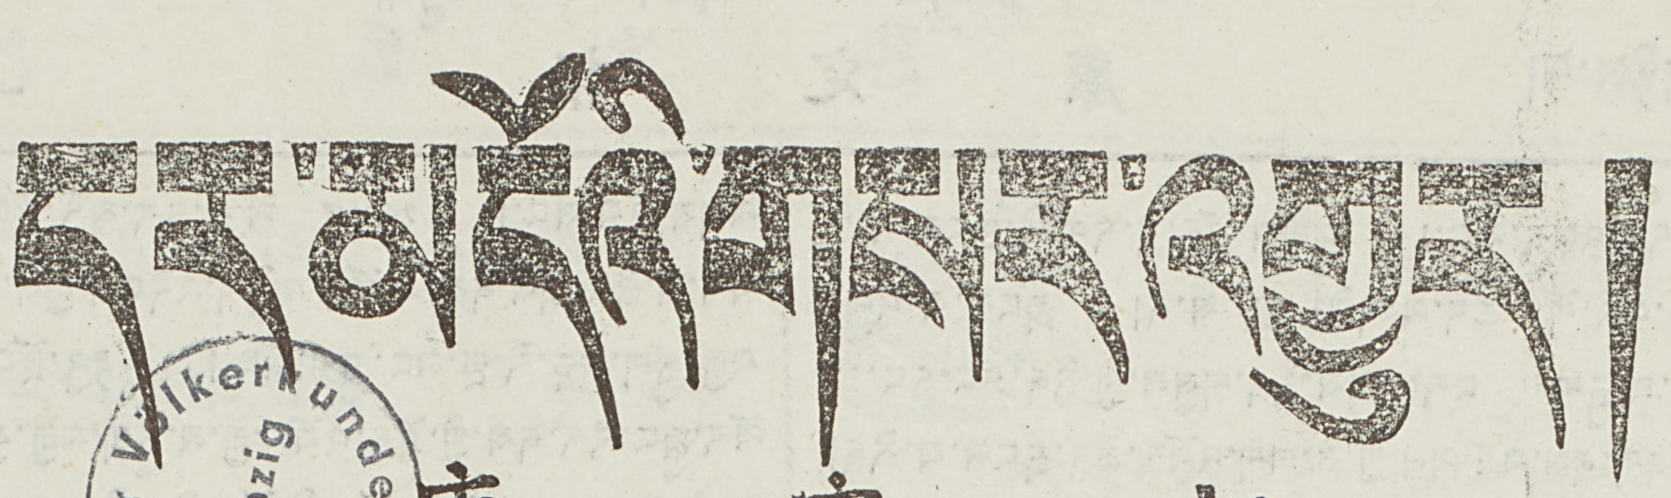དར་མདོའི་གསར་འགྱུར།
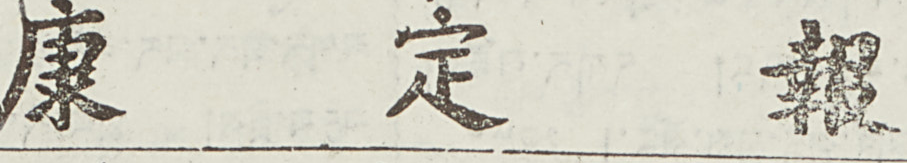康 定 報
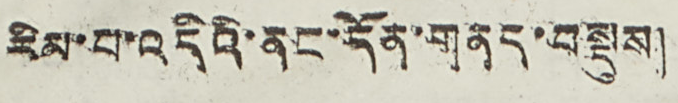རིམ་པ་འདིའི་ནང་དོན་གནད་བསྡུས།
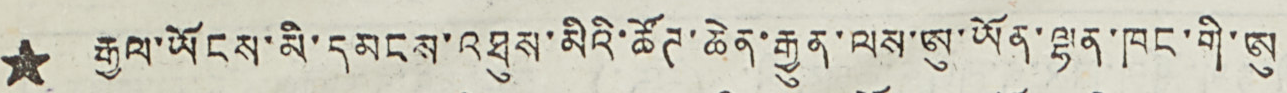★ རྒྱལ་ཡོངས་མི་དམངས་འཐུས་མིའི་ཚོཊ་ཆེན་རྒྱུན་ལས་ཨུ་ཡོན་ལྷན་ཁང་གི་ཨུ
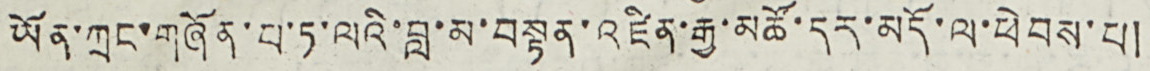ཡོན་ཀྲུང་གཞོན་པ་ཏ་ལའི་བླ་མ་བསྟན་འཛིན་རྒྱ་མཚོ་དར་མདོ་ལ་ཕེབས་པ།
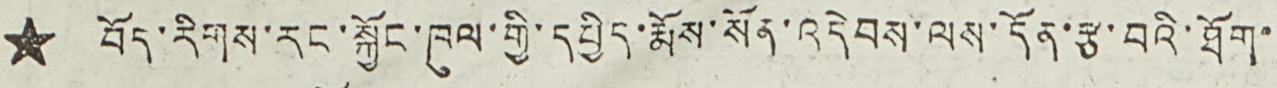★ བོད་རིགས་རང་སྐྱོང་ཁུལ་གྱི་དཔྱིད་རྨོས་སོན་འདེབས་ལས་དོན་རྩ་བའི་ཐོག་
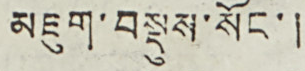མཇུག་བསྡུས་སོང་།
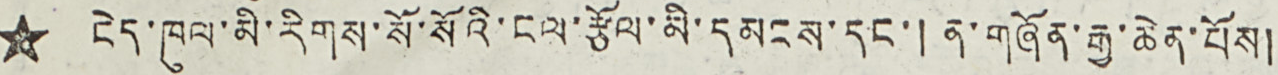★ ངེད་ཁུལ་མི་རིགས་སོ་སོའི་ངལ་རྩོལ་མི་དམངས་དང་། ན་གཞོན་རྒྱ་ཆེན་པོས།
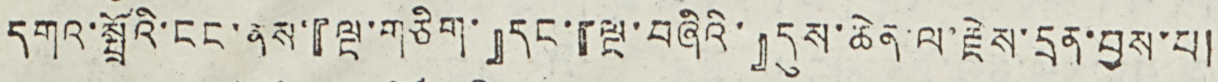དགའ་སྤྲོའི་ངང་ནས་『ལྔ་གཅིག་』དང་『ལྔ་བཞིའི་』དུས་ཆེན་ལ་རྗེས་དྲན་བྱས་པ།
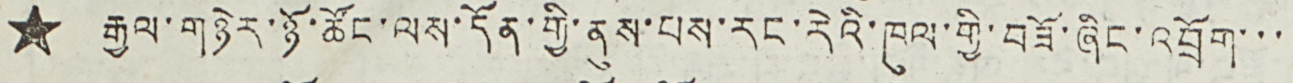★ རྒྱལ་གཉེར་ཉོ་ཚོང་ལས་དོན་གྱི་ནུས་པས་རང་རེའི་ཁུལ་གྱི་བཟོ་ཞིང་འབྲོག་་་
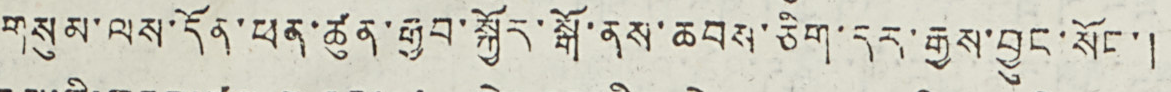གསུམ་ལས་དོན་ཕན་ཚུན་རྒྱབ་སྐྱོར་སྒོ་ནས་ཆབས་ཅིག་དར་རྒྱས་བྱུང་སོང་།
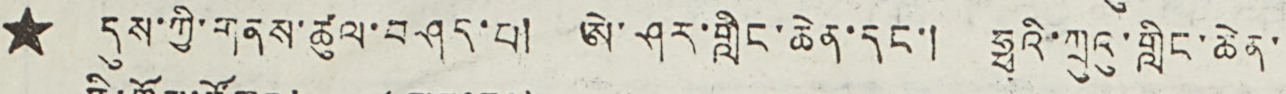★ དུས་ཀྱི་གནས་ཚུལ་བཤད་པ། ཨེ་ཤར་གླིང་ཆེན་དང་། ཧྥའི་ཀྲུའུ་གླིང་ཆེན་
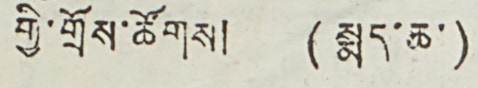གྱི་གྲོས་ཚོགས། (སྨད་ཆ་)
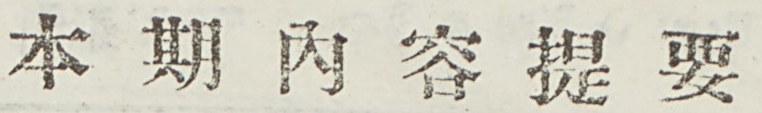本 期 內 容 提 要
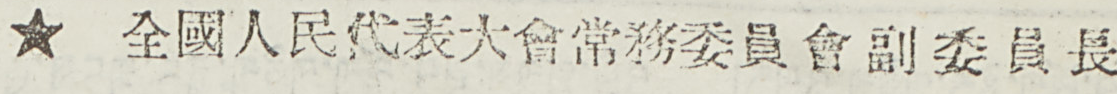★ 全國人民代表大會常務委員 會 副 委 員 長
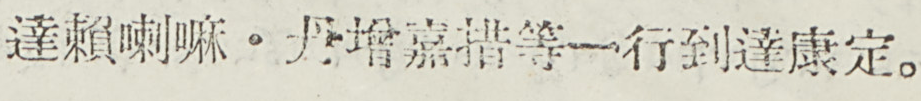達賴喇嘛・丹增嘉措等一行到達康定。
